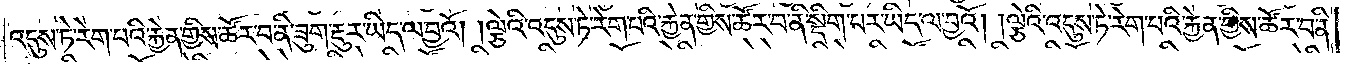འདུས་ཏེ་རེག་པའི་རྐྱེན་གྱིས་ཚོར་བ་ནི་ཟུག་རྔུར་ཡིད་ལ་བྱའོ། །ལྕེའི་འདུས་ཏེ་རེག་པའི་རྐྱེན་གྱིས་ཚོར་བ་ནི་སྡིག་པར་ཡིད་ལ་བྱའོ། །ལྕེའི་འདུས་ཏེ་རེག་པའི་རྐྱེན་གྱིས་ཚོར་བ་ནི་
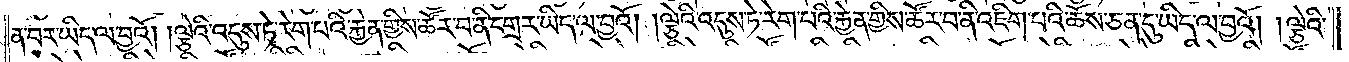ན་བར་ཡིད་ལ་བྱའོ། །ལྕེའི་འདུས་ཏེ་རེག་པའི་རྐྱེན་གྱིས་ཚོར་བ་ནི་དགྲར་ཡིད་ལ་བྱའོ། །ལྕེའི་འདུས་ཏེ་རེག་པའི་རྐྱེན་གྱིས་ཚོར་བ་ནི་འཇིག་པའི་ཆོས་ཅན་དུ་ཡིད་ལ་བྱའོ། །ལྕེའི་
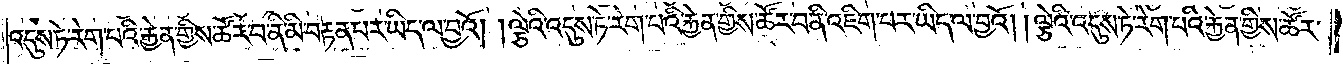འདུས་ཏེ་རེག་པའི་རྐྱེན་གྱིས་ཚོར་བ་ནི་མི་བརྟན་པར་ཡིད་ལ་བྱའོ། །ལྕེའི་འདུས་ཏེ་རེག་པའི་རྐྱེན་གྱིས་ཚོར་བ་ནི་འཇིག་པར་ཡིད་ལ་བྱའོ། །ལྕེའི་འདུས་ཏེ་རེག་པའི་རྐྱེན་གྱིས་ཚོར་
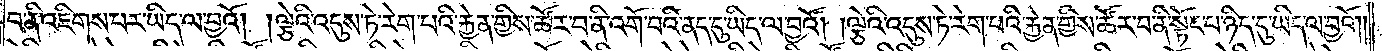བ་ནི་འཇིགས་པར་ཡིད་ལ་བྱའོ། །ལྕེའི་འདུས་ཏེ་རེག་པའི་རྐྱེན་གྱིས་ཚོར་བ་ནི་འགོ་བའི་ནད་དུ་ཡིད་ལ་བྱའོ། །ལྕེའི་འདུས་ཏེ་རེག་པའི་རྐྱེན་གྱིས་ཚོར་བ་ནི་སྟོང་པ་ཉིད་དུ་ཡིད་ལ་བྱའོ། །
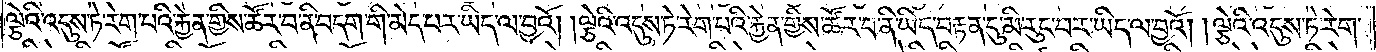ལྕེའི་འདུས་ཏེ་རེག་པའི་རྐྱེན་གྱིས་ཚོར་བ་ནི་བདག་གི་མེད་པར་ཡིད་ལ་བྱའོ། །ལྕེའི་འདུས་ཏེ་རེག་པའི་རྐྱེན་གྱིས་ཚོར་བ་ནི་ཡིད་བརྟན་དུ་མི་རུང་བར་ཡིད་ལ་བྱའོ། །ལྕེའི་འདུས་ཏེ་རེག་
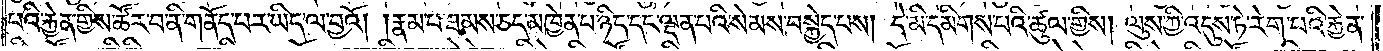པའི་རྐྱེན་གྱིས་ཚོར་བ་ནི་གནོད་པར་ཡིད་ལ་བྱའོ། །རྣམ་པ་ཐམས་ཅད་མཁྱེན་པ་ཉིད་དང་ལྡན་པའི་སེམས་བསྐྱེད་པས། དེ་མི་དམིགས་པའི་ཚུལ་གྱིས། ལུས་ཀྱི་འདུས་ཏེ་རེག་པའི་རྐྱེན་
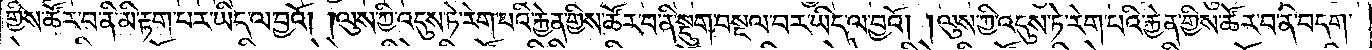གྱིས་ཚོར་བ་ནི་མི་རྟག་པར་ཡིད་ལ་བྱའོ། །ལུས་ཀྱི་འདུས་ཏེ་རེག་པའི་རྐྱེན་གྱིས་ཚོར་བ་ནི་སྡུག་བསྔལ་བར་ཡིད་ལ་བྱའོ། །ལུས་ཀྱི་འདུས་ཏེ་རེག་པའི་རྐྱེན་གྱིས་ཚོར་བ་ནི་བདག་
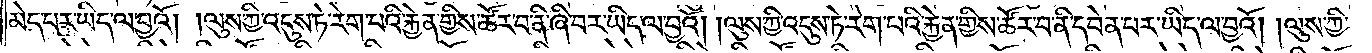མེད་པར་ཡིད་ལ་བྱའོ། །ལུས་ཀྱི་འདུས་ཏེ་རེག་པའི་རྐྱེན་གྱིས་ཚོར་བ་ནི་ཞི་བར་ཡིད་ལ་བྱའོ། །ལུས་ཀྱི་འདུས་ཏེ་རེག་པའི་རྐྱེན་གྱིས་ཚོར་བ་ནི་དབེན་པར་ཡིད་ལ་བྱའོ། །ལུས་ཀྱི་
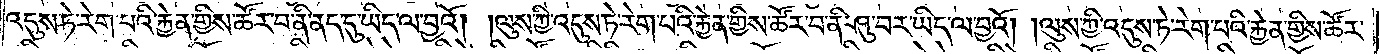འདུས་ཏེ་རེག་པའི་རྐྱེན་གྱིས་ཚོར་བ་ནི་ནད་དུ་ཡིད་ལ་བྱའོ། །ལུས་ཀྱི་འདུས་ཏེ་རེག་པའི་རྐྱེན་གྱིས་ཚོར་བ་ནི་ཤུ་བར་ཡིད་ལ་བྱའོ། །ལུས་ཀྱི་འདུས་ཏེ་རེག་པའི་རྐྱེན་གྱིས་ཚོར་
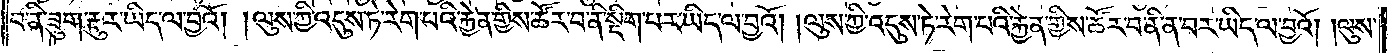བ་ནི་ཟུག་རྔུར་ཡིད་ལ་བྱའོ། །ལུས་ཀྱི་འདུས་ཏེ་རེག་པའི་རྐྱེན་གྱིས་ཚོར་བ་ནི་སྡིག་པར་ཡིད་ལ་བྱའོ། །ལུས་ཀྱི་འདུས་ཏེ་རེག་པའི་རྐྱེན་གྱིས་ཚོར་བ་ནི་ན་བར་ཡིད་ལ་བྱའོ། །ལུས་
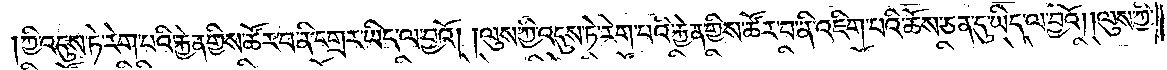ཀྱི་འདུས་ཏེ་རེག་པའི་རྐྱེན་གྱིས་ཚོར་བ་ནི་དགྲར་ཡིད་ལ་བྱའོ། །ལུས་ཀྱི་འདུས་ཏེ་རེག་པའི་རྐྱེན་གྱིས་ཚོར་བ་ནི་འཇིག་པའི་ཆོས་ཅན་དུ་ཡིད་ལ་བྱའོ། །ལུས་ཀྱི་
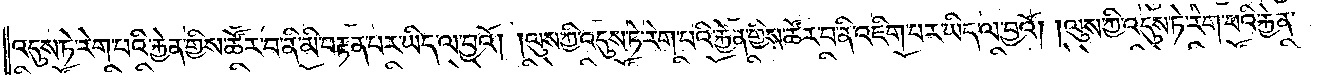འདུས་ཏེ་རེག་པའི་རྐྱེན་གྱིས་ཚོར་བ་ནི་མི་བརྟན་པར་ཡིད་ལ་བྱའོ། །ལུས་ཀྱི་འདུས་ཏེ་རེག་པའི་རྐྱེན་གྱིས་ཚོར་བ་ནི་འཇིག་པར་ཡིད་ལ་བྱའོ། །ལུས་ཀྱི་འདུས་ཏེ་རེག་པའི་རྐྱེན་
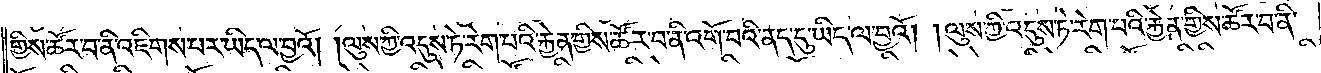གྱིས་ཚོར་བ་ནི་འཇིགས་པར་ཡིད་ལ་བྱའོ། །ལུས་ཀྱི་འདུས་ཏེ་རེག་པའི་རྐྱེན་གྱིས་ཚོར་བ་ནི་འགོ་བའི་ནད་དུ་ཡིད་ལ་བྱའོ། །ལུས་ཀྱི་འདུས་ཏེ་རེག་པའི་རྐྱེན་གྱིས་ཚོར་བ་ནི་
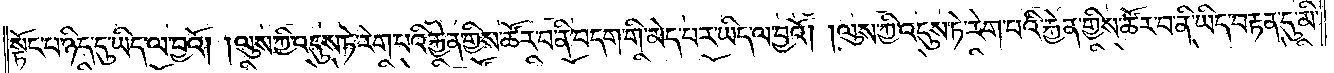སྟོང་པ་ཉིད་དུ་ཡིད་ལ་བྱའོ། །ལུས་ཀྱི་འདུས་ཏེ་རེག་པའི་རྐྱེན་གྱིས་ཚོར་བ་ནི་བདག་གི་མེད་པར་ཡིད་ལ་བྱའོ། །ལུས་ཀྱི་འདུས་ཏེ་རེག་པའི་རྐྱེན་གྱིས་ཚོར་བ་ནི་ཡིད་བརྟན་དུ་མི་
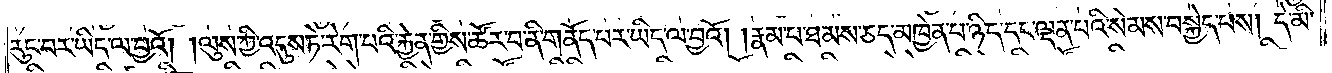རུང་བར་ཡིད་ལ་བྱའོ། །ལུས་ཀྱི་འདུས་ཏེ་རེག་པའི་རྐྱེན་གྱིས་ཚོར་བ་ནི་གནོད་པར་ཡིད་ལ་བྱའོ། །རྣམ་པ་ཐམས་ཅད་མཁྱེན་པ་ཉིད་དང་ལྡན་པའི་སེམས་བསྐྱེད་པས། དེ་མི་
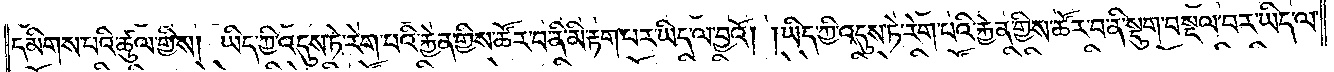དམིགས་པའི་ཚུལ་གྱིས། ཡིད་ཀྱི་འདུས་ཏེ་རེག་པའི་རྐྱེན་གྱིས་ཚོར་བ་ནི་མི་རྟག་པར་ཡིད་ལ་བྱའོ། །ཡིད་ཀྱི་འདུས་ཏེ་རེག་པའི་རྐྱེན་གྱིས་ཚོར་བ་ནི་སྡུག་བསྔལ་བར་ཡིད་ལ་
